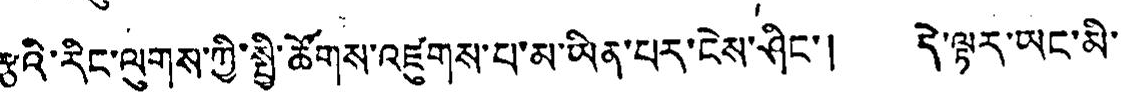རྩའི་རིང་ལུསྒ་ཀྱི་སྤྱི་ཚོགས་འཛུགས་པ་མ་ཡིན་པར་ངེས་ཤིང་། དེ་ལྟར་ཡང་མི་
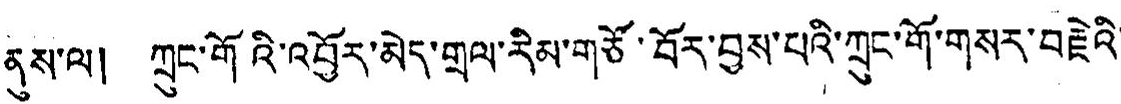ནུས་ལ། ཀྲུང་གོའི་འབྱོར་མེད་གྲལ་རིམ་གཙོ་བོར་བྱས་པའི་ཀྲུང་གོ་གསར་བརྗེའི་
